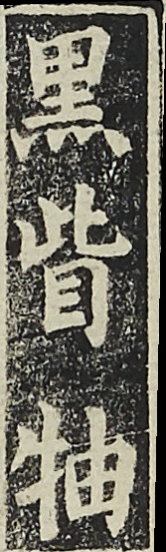黑眥牰
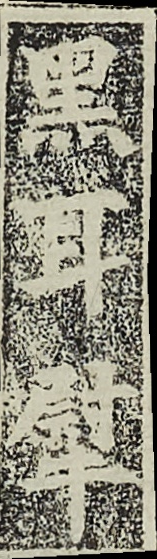黑耳犚
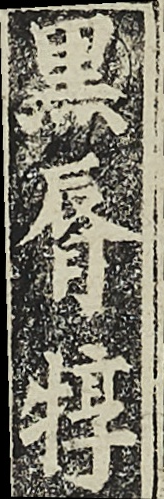黑㫳犉
